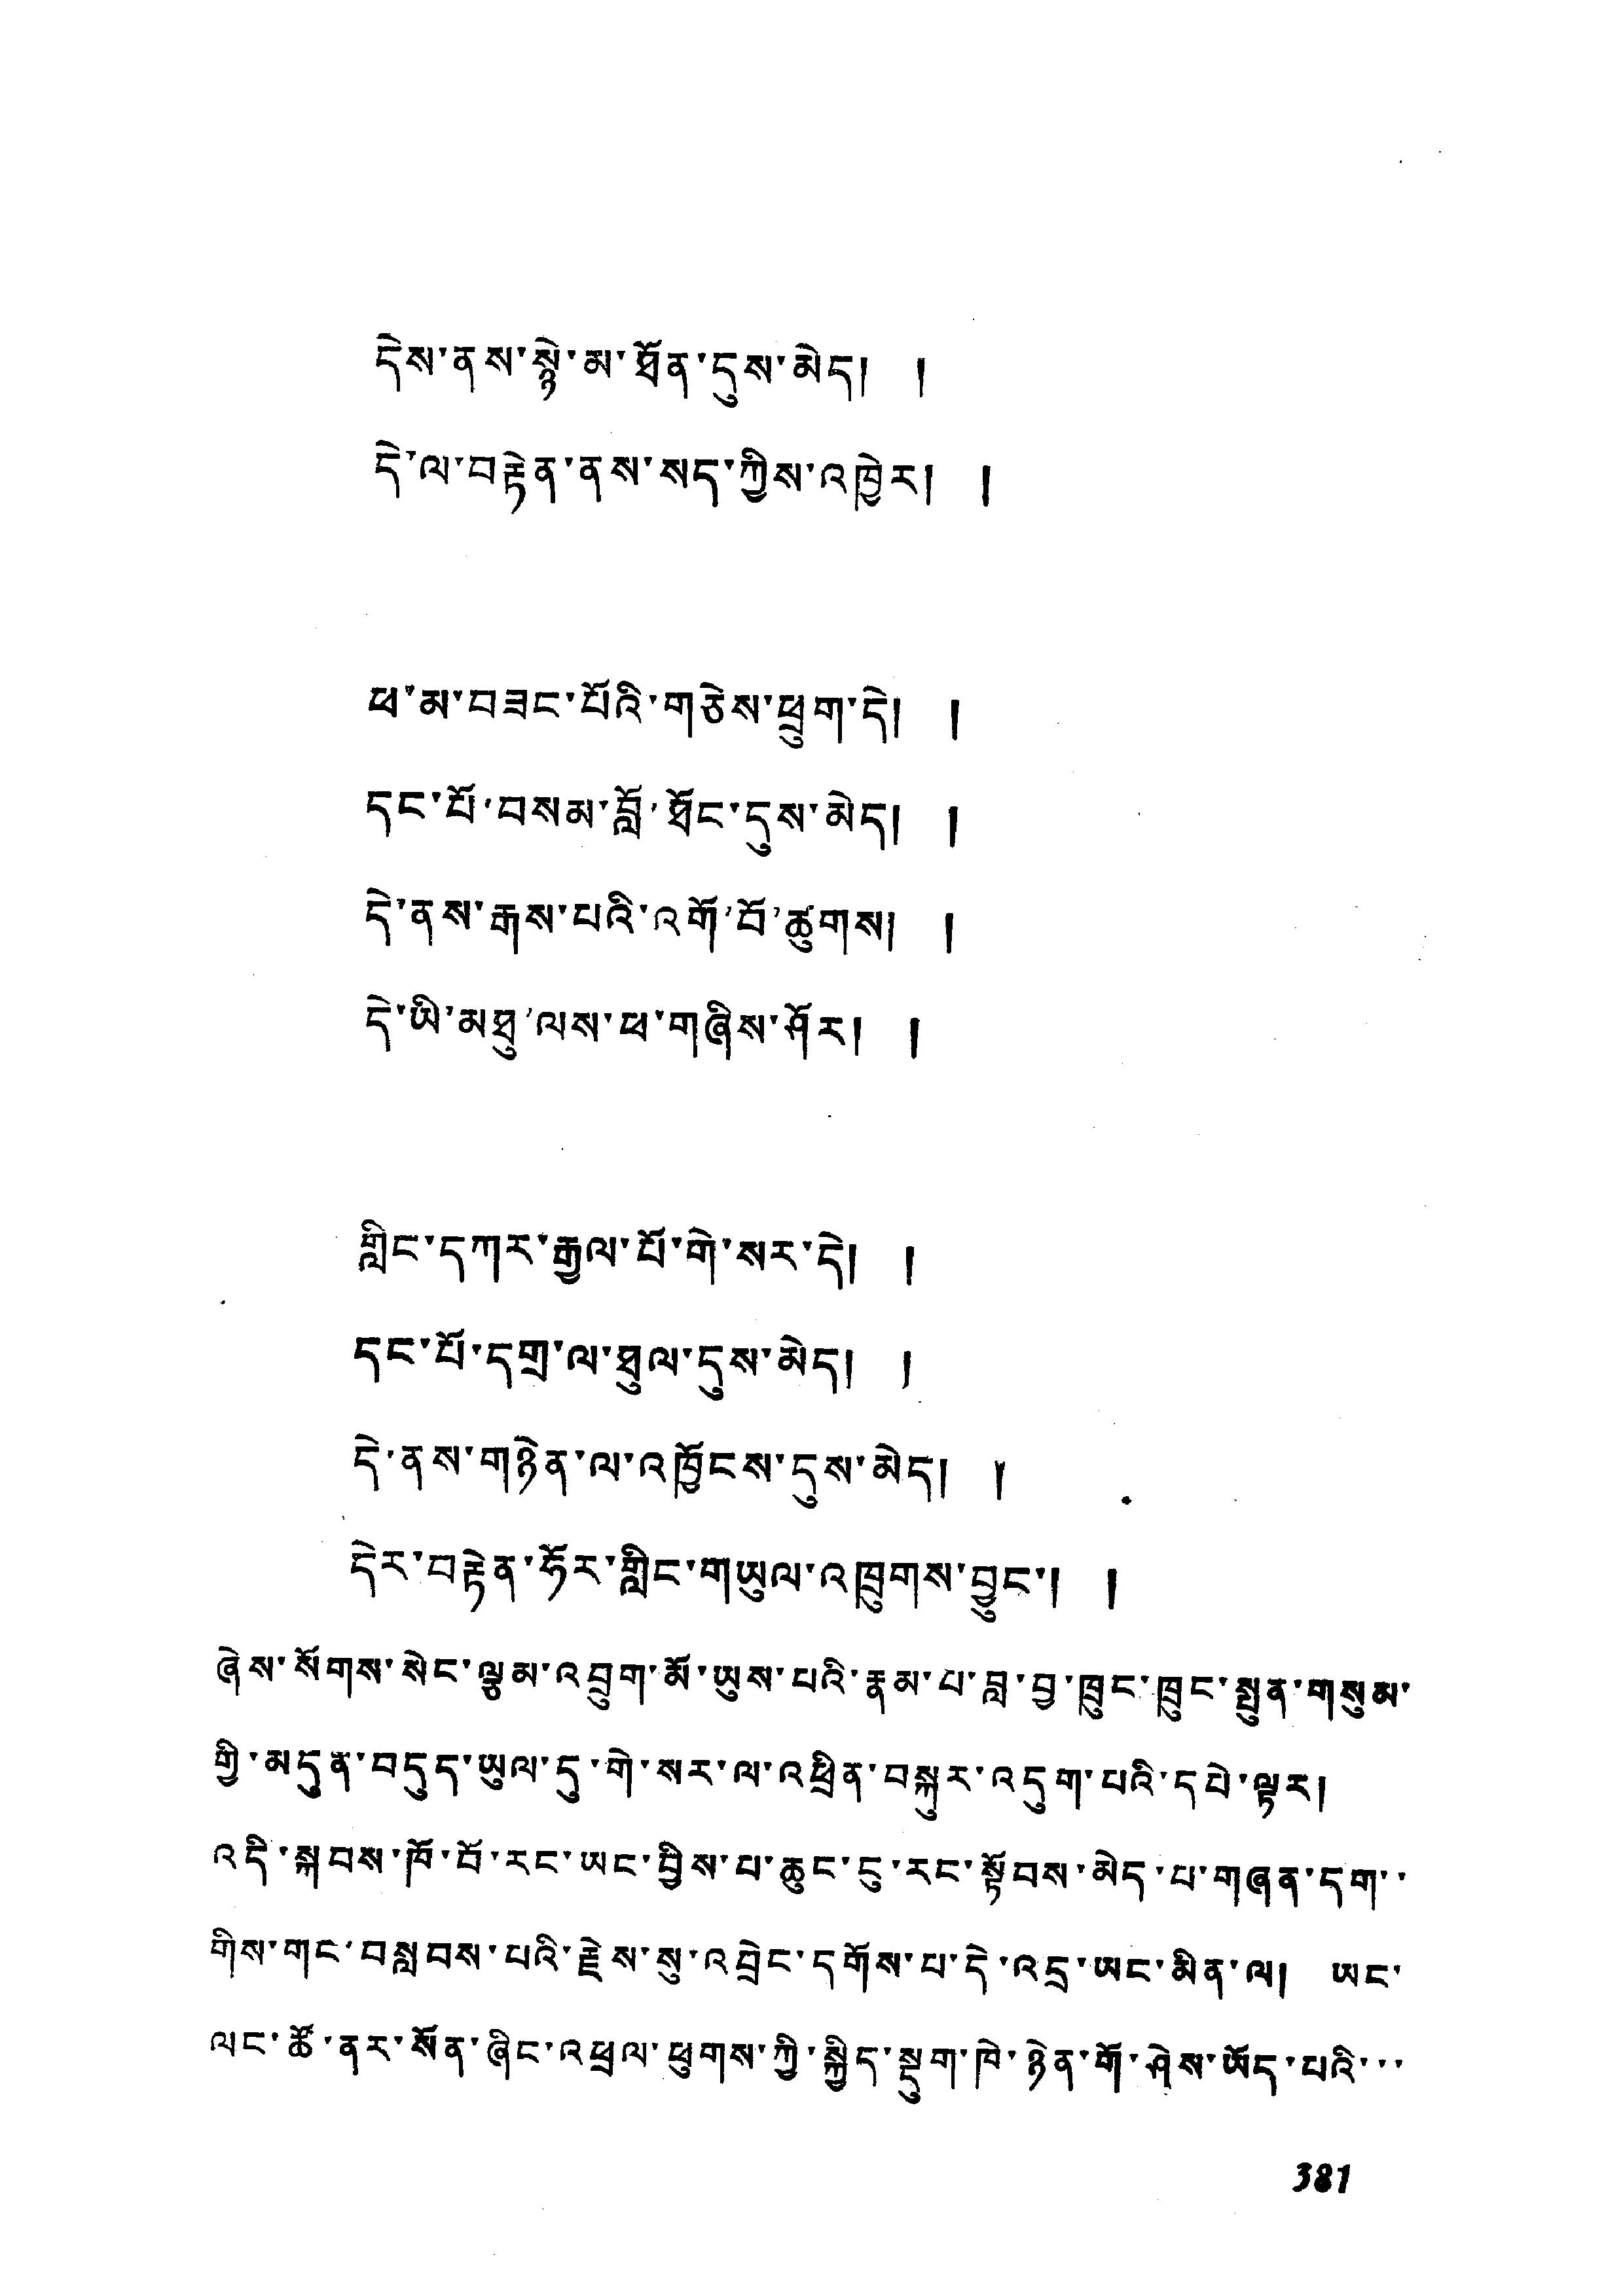དེས་ནས་སྙེ་མ་ཐོན་དུས་མེད། །
དེ་ལ་བརྟེན་ནས་སད་ཀྱིས་འཁྱེར། །
ཕ་མ་བཟང་པོའི་གཅེས་ཕྲུག་དེ། །
དང་པོ་བསམ་བློ་ཐོང་དུས་མེད། །
དེ་ནས་རྒས་པའ་འགོ་བོ་ཚུགས། །
དེ་ཡི་མཐུ་ལས་ཕ་གཞིས་ཤོར། །
གླིང་དཀར་རྒྱལ་པོ་གེ་སར་དེ། །
དང་པོ་དགྲ་ལ་ཐུལ་དུས་མེད། །
དེ་ནས་གཉེན་ལ་འཁྱོངས་དུས་མེད། །
དེར་བརྟེན་ཧོར་གླིང་གཡུལ་འཁྲུགས་བྱུང་། །
ཞེས་སོགས་སེང་ལྕམ་འབྲུག་མོ་ཡུས་པའི་རྣམ་པ་བླ་བྱ་ཁྲུང་ཁྲུང་སྤུན་གསུམ་
གྱི་མདུན་བདུད་ཡུལ་དུ་གེ་སར་ལ་འཕྲིན་བསྐུར་འདུག་པའི་དཔེ་ལྟར།
འདི་སྐབས་ཁོ་བོ་ཡང་བྱིས་པ་ཆུང་ངུ་རང་སྟོབས་མེད་པ་གཞན་དག་་
གིས་གང་བསླབས་པའི་རྗེས་སུ་འབྲེང་དགོས་པ་དེ་འདྲ་ཡང་མིན་ལ། ཡང་
ལང་ཚོ་ནར་སོན་ཞིང་འཕྲལ་ཕུགས་ཀྱི་སྐྱིད་སྡུག་ཁེ་ཉེན་གོ་ཤེས་ཡོད་པའི་་་
381
